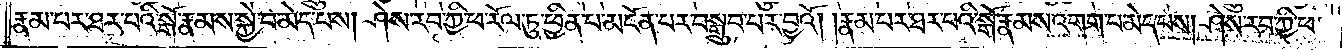རྣམ་པར་ཐར་པའི་སྒོ་རྣམས་སྐྱེ་བ་མེད་པས། ཤེས་རབ་ཀྱི་ཕ་རོལ་ཏུ་ཕྱིན་པ་མངོན་པར་བསྒྲུབ་པར་བྱའོ། །རྣམ་པར་ཐར་པའི་སྒོ་རྣམས་འགག་པ་མེད་པས། ཤེས་རབ་ཀྱི་ཕ་
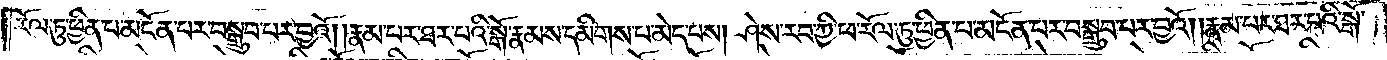རོལ་ཏུ་ཕྱིན་པ་མངོན་པར་བསྒྲུབ་པར་བྱའོ། །རྣམ་པར་ཐར་པའི་སྒོ་རྣམས་དམིགས་པ་མེད་པས། ཤེས་རབ་ཀྱི་ཕ་རོལ་ཏུ་ཕྱིན་པ་མངོན་པར་བསྒྲུབ་པར་བྱའོ། །རྣམ་པར་ཐར་པའི་སྒོ་
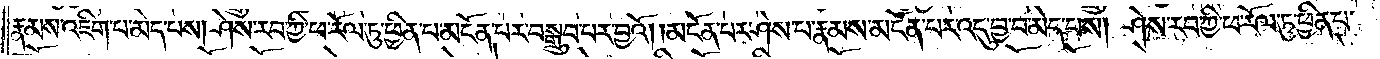རྣམས་འཇིག་པ་མེད་པས། ཤེས་རབ་ཀྱི་ཕ་རོལ་ཏུ་ཕྱིན་པ་མངོན་པར་བསྒྲུབ་པར་བྱའོ། །མངོན་པར་ཤེས་པ་རྣམས་མངོན་པར་འདུ་བྱ་བ་མེད་པས། ཤེས་རབ་ཀྱི་ཕ་རོལ་ཏུ་ཕྱིན་པ་
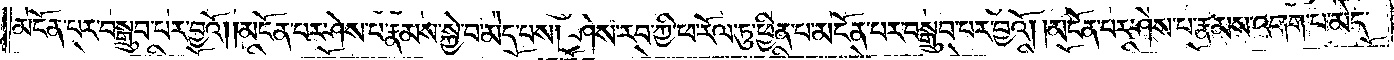མངོན་པར་བསྒྲུབ་པར་བྱའོ། །མངོན་པར་ཤེས་པ་རྣམས་སྐྱེ་བ་མེད་པས། ཤེས་རབ་ཀྱི་ཕ་རོལ་ཏུ་ཕྱིན་པ་མངོན་པར་བསྒྲུབ་པར་བྱའོ། །མངོན་པར་ཤེས་པ་རྣམས་འགག་པ་མེད་
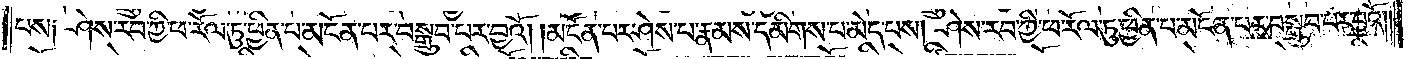པས༑ ཤེས་རབ་ཀྱི་ཕ་རོལ་ཏུ་ཕྱིན་པ་མངོན་པར་བསྒྲུབ་བར་བྱའོ། །མངོན་པར་ཤེས་པ་རྣམས་དམིགས་པ་མེད་པས། ཤེས་རབ་ཀྱི་ཕ་རོལ་ཏུ་ཕྱིན་པ་མངོན་པར་བསྒྲུབ་པར་བྱའོ། །
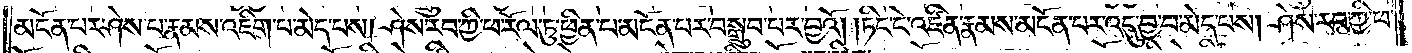མངོན་པར་ཤེས་པ་རྣམས་འཇིག་པ་མེད་པས། ཤེས་རབ་ཀྱི་ཕ་རོལ་ཏུ་ཕྱིན་པ་མངོན་པར་བསྒྲུབ་པར་བྱའོ། །ཏིང་ངེ་འཛིན་རྣམས་མངོན་པར་འདུ་བྱ་བ་མེད་པས། ཤེས་རབ་ཀྱི་ཕ་
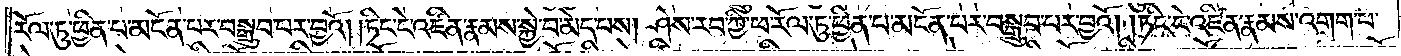རོལ་ཏུ་ཕྱིན་པ་མངོན་པར་བསྒྲུབ་པར་བྱའོ། །ཏིང་ངེ་འཛིན་རྣམས་སྐྱེ་བ་མེད་པས། ཤེས་རབ་ཀྱི་ཕ་རོལ་ཏུ་ཕྱིན་པ་མངོན་པར་བསྒྲུབ་པར་བྱའོ། །ཏིང་ངེ་འཛིན་རྣམས་འགག་པ་
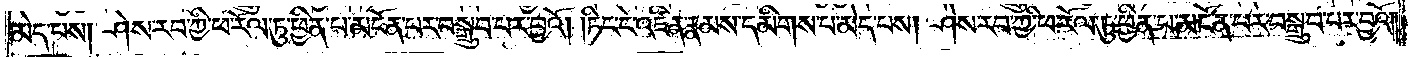མེད་པས། ཤེས་རབ་ཀྱི་ཕ་རོལ་ཏུ་ཕྱིན་པ་མངོན་པར་བསྒྲུབ་པར་བྱའོ། །ཏིང་ངེ་འཛིན་རྣམས་དམིགས་པ་མེད་པས། ཤེས་རབ་ཀྱི་ཕ་རོལ་ཏུ་ཕྱིན་པ་མངོན་པར་བསྒྲུབ་པར་བྱའོ། །
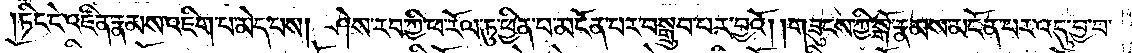ཏིང་ངེ་འཛིན་རྣམས་འཇིག་པ་མེད་པས། ཤེས་རབ་ཀྱི་ཕ་རོལ་ཏུ་ཕྱིན་པ་མངོན་པར་བསྒྲུབ་པར་བྱའོ། །གཟུངས་ཀྱི་སྒོ་རྣམས་མངོན་པར་འདུ་བྱ་བ་
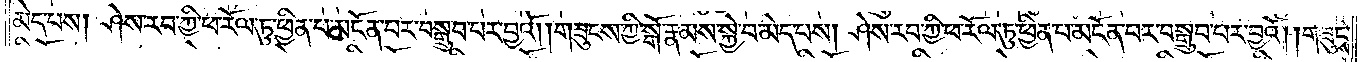མེད་པས། ཤེས་རབ་ཀྱི་ཕ་རོལ་ཏུ་ཕྱིན་པ་མངོན་པར་བསྒྲུབ་པར་བྱའོ། །གཟུངས་ཀྱི་སྒོ་རྣམས་སྐྱེ་བ་མེད་པས། ཤེས་རབ་ཀྱི་ཕ་རོལ་ཏུ་ཕྱིན་པ་མངོན་པར་བསྒྲུབ་པར་བྱའོ། །གཟུངས་
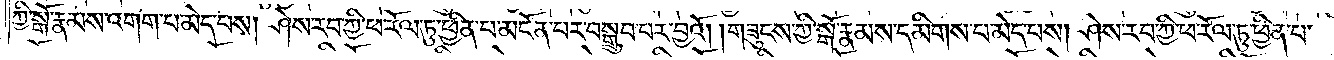ཀྱི་སྒོ་རྣམས་འགག་པ་མེད་པས། ཤེས་རབ་ཀྱི་ཕ་རོལ་ཏུ་ཕྱིན་པ་མངོན་པར་བསྒྲུབ་པར་བྱའོ། །གཟུངས་ཀྱི་སྒོ་རྣམས་དམིགས་པ་མེད་པས། ཤེས་རབ་ཀྱི་ཕ་རོལ་ཏུ་ཕྱིན་པ་
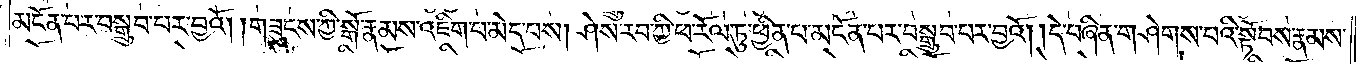མངོན་པར་བསྒྲུབ་པར་བྱའོ། །གཟུངས་ཀྱི་སྒོ་རྣམས་འཇིག་པ་མེད་པས། ཤེས་རབ་ཀྱི་ཕ་རོལ་ཏུ་ཕྱིན་པ་མངོན་པར་བསྒྲུབ་པར་བྱའོ། །དེ་བཞིན་གཤེགས་པའི་སྟོབས་རྣམས་
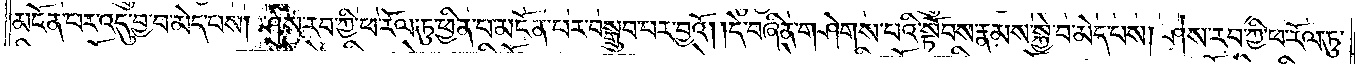མངོན་པར་འདུ་བྱ་བ་མེད་པས། ཤེས་རབ་ཀྱི་ཕ་རོལ་ཏུ་ཕྱིན་པ་མངོན་པར་བསྒྲུབ་པར་བྱའོ། །དེ་བཞིན་གཤེགས་པའི་སྟོབས་རྣམས་སྐྱེ་བ་མེད་པས། ཤེས་རབ་ཀྱི་ཕ་རོལ་ཏུ་
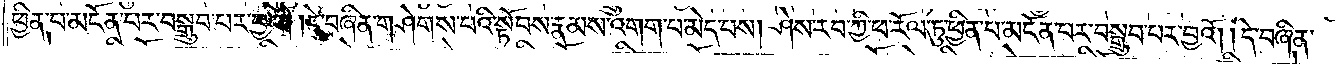ཕྱིན་པ་མངོན་པར་བསྒྲུབ་པར་བྱའོ། །དེ་བཞིན་གཤེགས་པའི་སྟོབས་རྣམས་འགག་པ་མེད་པས། ཤེས་རབ་ཀྱི་ཕ་རོལ་ཏུ་ཕྱིན་པ་མངོན་པར་བསྒྲུབ་པར་བྱའོ། །དེ་བཞིན་
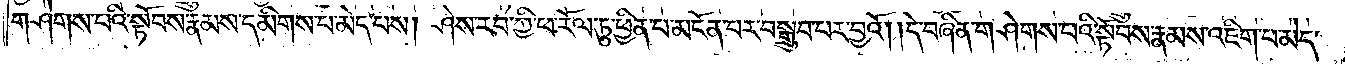གཤེགས་པའི་སྟོབས་རྣམས་དམིགས་པ་མེད་པས། ཤེས་རབ་ཀྱི་ཕ་རོལ་ཏུ་ཕྱིན་པ་མངོན་པར་བསྒྲུབ་པར་བྱའོ། །དེ་བཞིན་གཤེགས་པའི་སྟོབས་རྣམས་འཇིག་པ་མེད་
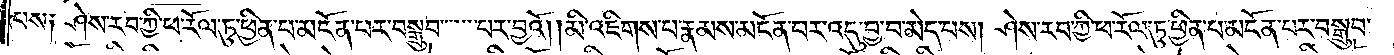པས༑ ཤེས་རབ་ཀྱི་ཕ་རོལ་ཏུ་ཕྱིན་པ་མངོན་པར་བསྒྲུབ་པར་བྱའོ། །མི་འཇིགས་པ་རྣམས་མངོན་པར་འདུ་བྱ་བ་མེད་པས། ཤེས་རབ་ཀྱི་ཕ་རོལ་ཏུ་ཕྱིན་པ་མངོན་པར་བསྒྲུབ་
